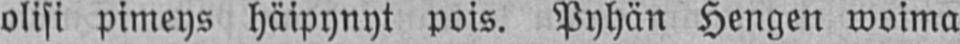olisi pimeys häipynyt pois. Pyhän Hengen woima
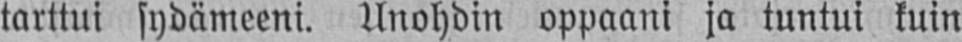tarttui sydämeeni. Unohdin oppaani ja tuntui kuin
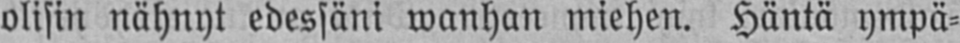olisin nähnyt edessäni wanhan miehen. Häntä ympä-
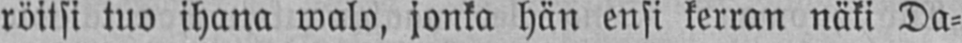röitsi tuo ihana walo, jonka hän ensi kerran näki Da-
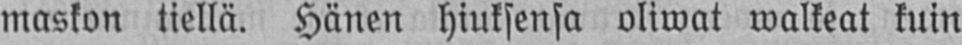maskon tiellä. Hänen hiuksensa oliwat walkeat kuin
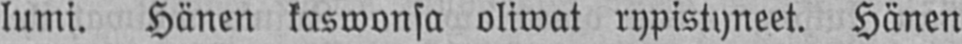lumi. Hänen kaswonsa oliwat rypistyneet. Hänen
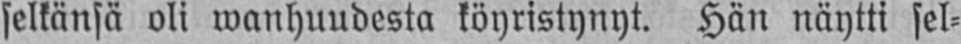selkänsä oli wanhuudesta köyristynyt. Hän näytti sel-
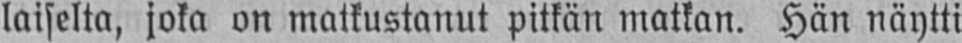laiselta, joka on matkustanut pitkän matkan. Hän näytti
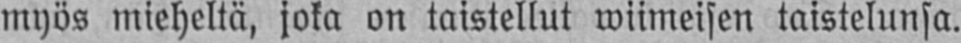myös mieheltä, joka on taistellut wiimeisen taistelunsa.
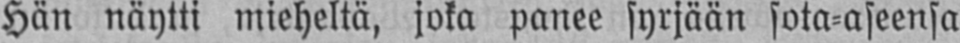Hän näytti mieheltä, joka panee syrjään sota-aseensa
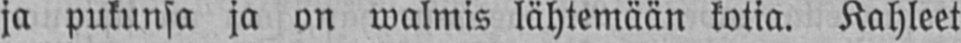ja pukunsa ja on walmis lähtemään kotia. Kahleet
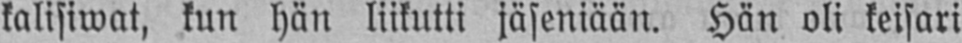kalisiwat, kun hän liikutti jäseniään. Hän oli keisari
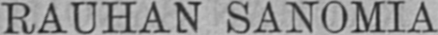RAUHAN SANOMIA.
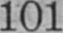101
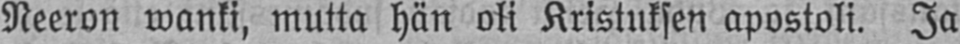Neeron wanki, mutta hän oli Kristuksen apostoli. Ja
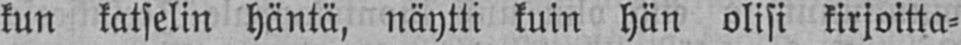kun katselin häntä, näytti kuin hän olisi kirjoitta-
